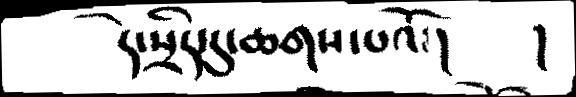དེ་སྲིད་དུ་ཆགས་པའོ་།  །
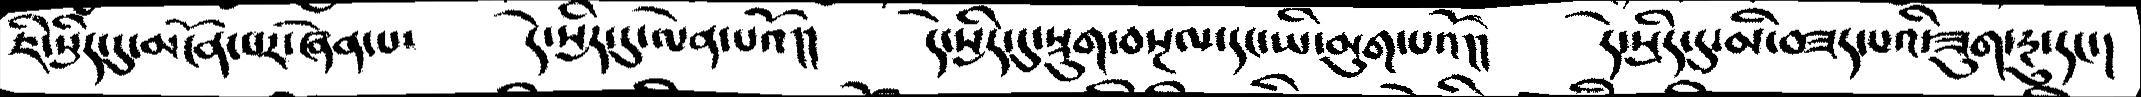ཇི་སྲིད་དུམངོན་པར་ཞེན་པ་      དེ་སྲིད་དུ་ལེན་པའོ།།    དེ་སྲིད་དུ་སྡུག་བསྔལ་དང་ཡི་མུག་པའོ།།   དེ་སྲིད་དུ་མི་བཟད་པའི་ཟུག་རྔུ་དང་།
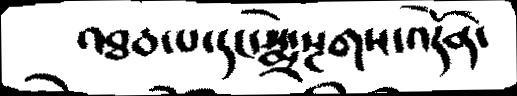འཐབ་པ་དང་སྨྲེ་སྔགས་འདོན་
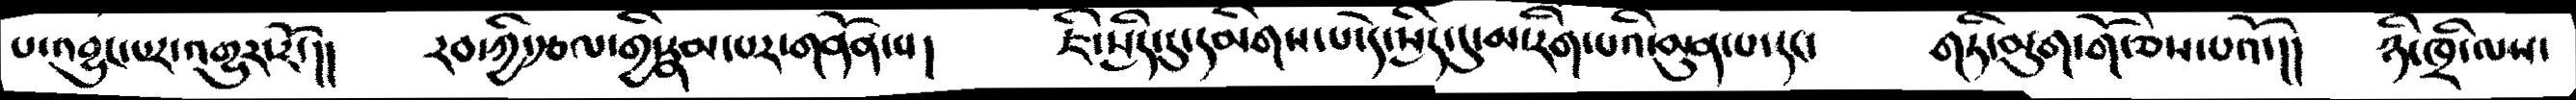པ་འབྱུང་པར་འགྱུར་རོ་།།     རབ་ཀྱི་རྩལ་གྱི་རྣམ་པར་གནོན་པ།    ཇི་སྲིད་དུ་དམིགས་པ་དེ་སྲིད་དུ་མ་རིག་པའི་མུན་པ་དང་     གཏི་མུག་གོ་ཅེས་པའོ་།།   ཉི་ཁྲི་ལས་
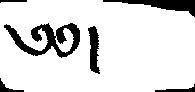༅༅།
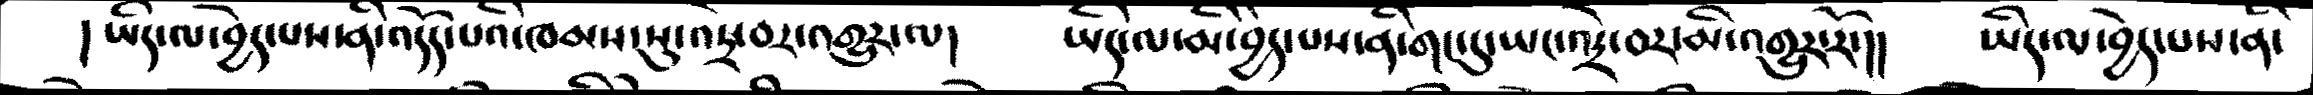།ཡིད་ལ་བྱེད་པས་ནི་འདོད་པའི་ཁམས་སུ་འཏྲེ་བར་འགྱུར་ལ།     ཡིད་ལ་མི་བྱེད་པས་ནི་གང་དུ་ཡང་འཏྲེ་བར་མི་འགྱུར་རོ་།།    ཡིད་ལ་བྱེད་པས་ནི་
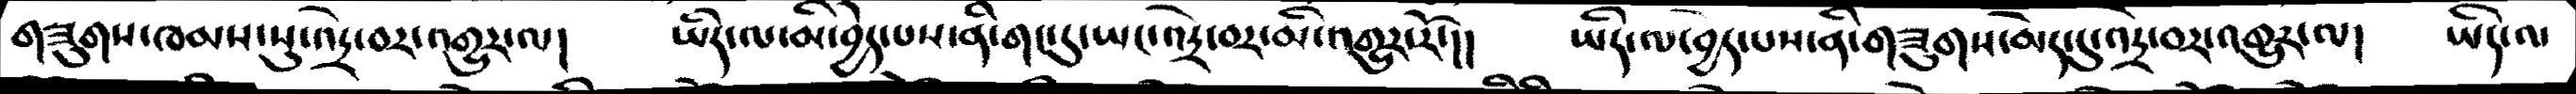གཟུགས་ཁམས་སུ་འཏྲེ་བར་འགྱུར་ལ།   ཡིད་ལ་མི་བྱེད་པས་ནི་གང་དུ་ཡང་འཏྲེ་བར་མི་འགྱུར་རོ་།།     ཡིད་ལ་བྱེད་པས་ནི་གཟུགས་མེད་དུ་འཏྲེ་བར་འགྱུར་ལ།   ཡིད་ལ
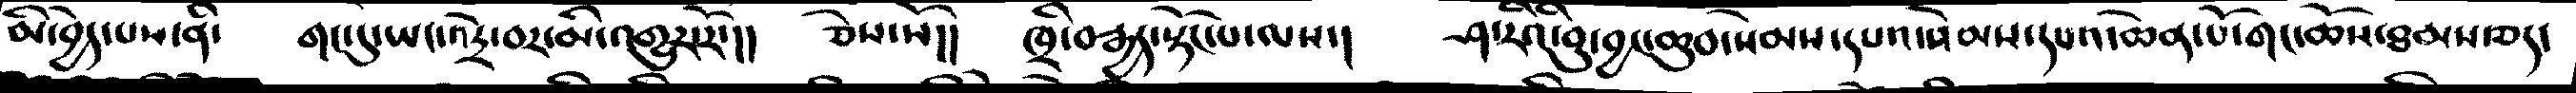མི་བྱེད་པས་ནི་     གང་དུ་ཡང་འཏྲེ་བར་མི་འགྱུར་རོ་།།    ཅེས་སོ།།   ཁྲི་བརྒྱད་སྟོང་པ་ལས་།     ཤ་རིའི་བུ་བྱང་ཆུབ་སེམས་དཔའ་སེམས་དཔའ་ཆེན་པོ་གང་ཆོས་ཐམས་ཅད་
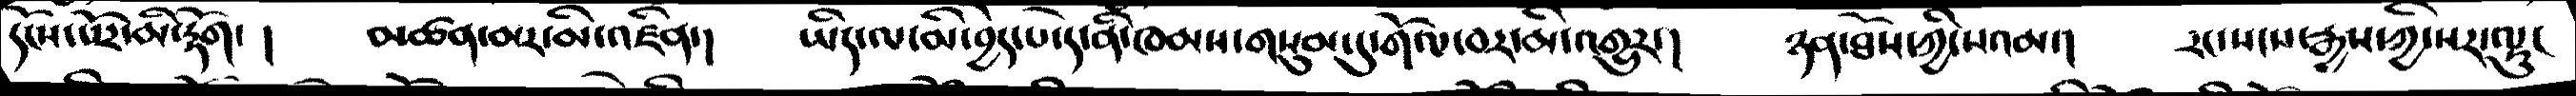དངོས་པོར་མི་རྟོག་ །   མཚན་མར་མི་འཛིན་།   ཡིད་ལ་མི་བྱེད་པ་དེ་ནི་ཁམས་གསུམ་དུ་གོལ་བར་མི་འགྱུར་།       ཉན་ཐོས་ཀྱི་སའམ་།    རང་སངས་རྒྱས་ཀྱི་སར་ལྷུང
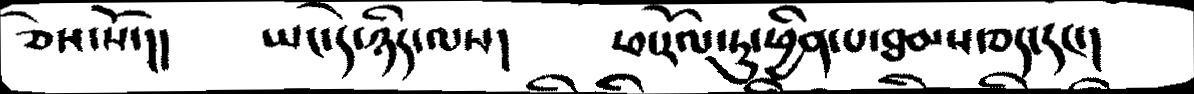ཅེས་སོ་།།     ཡང་དེ་ཉིད་ལས།     ཕ་རོལ་ཏུ་ཕྱིན་པ་ཐམས་ཅད་དང་།
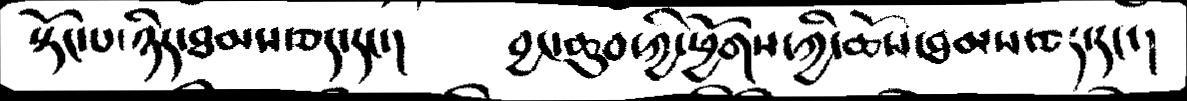སྟོང་པ་ཉིད་ཐབས་ཅད་དང་།      བྱང་ཆུབ་ཀྱི་ཕྱོགས་ཀྱི་ཆོས་ཐམས་ཅད་དང་།
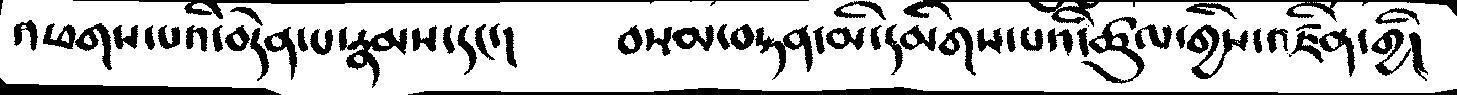འཕགས་པའི་བདེན་པ་རྣམས་དང་།     བསམ་བརྟན་མི་དམིགས་པའི་ཚུལ་གྱི་འཛིན་གྱི།
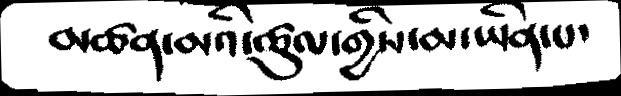མཚན་མའི་ཚུལ་གྱིས་མ་ཡིན་པ་
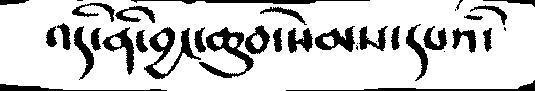འདི་ནི་བྱང་ཆུབ་སེམས་དཔའི་
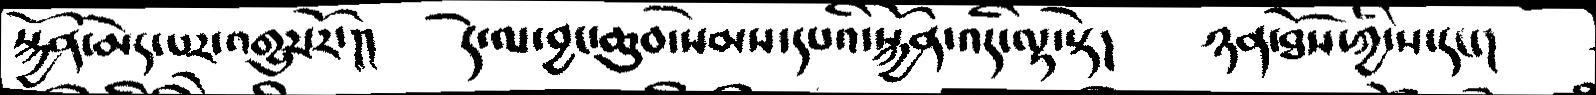སྐྱོན་མེད་པར་འགྱུར་རོ་།།      དེ་ལ་བྱང་ཆུབ་སེམས་དཔའི་སྐྱོན་འདི་ལྟ་སྟེ།      ཉན་ཐོས་ཀྱི་ས་དང་།
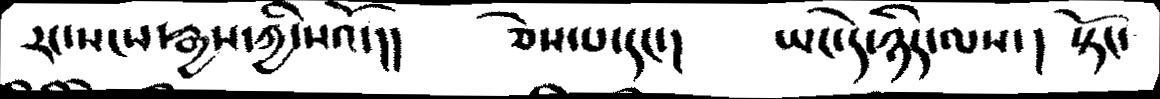རང་སངས་རྒྱས་ཀྱི་སའོ་།།   ཅེས་པ་དང་།     ཡང་དེ་ཉིད་ལས་།    སྟོང་
